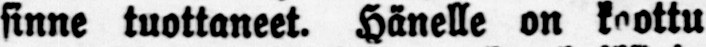sinne tuottaneet. Hänelle on koottu
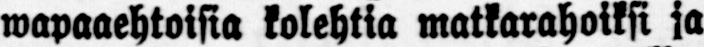wapaaehtoisia kolehtia matkarahoiksi ja
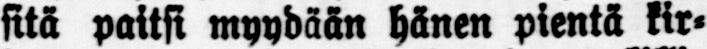sitä paitsi myydään hänen pientä kir-
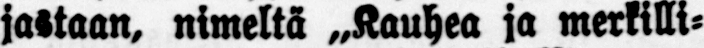jastaan, nimeltä »Kauhea ja merkilli-
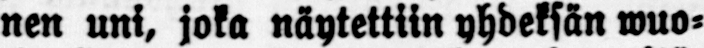nen uni, joka näytettiin yhdeksän wuo-
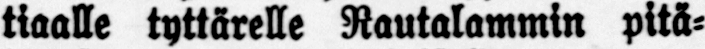tiaalle tyttärelle Rautalammin pitä-
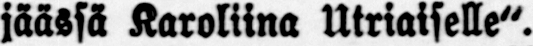jäässä Karoliina Utriaiselle".
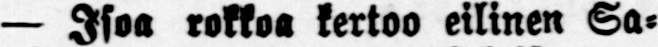— Isoa rokkoa kertoo eilinen Sa-
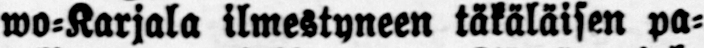wo-Karjala ilmestyneen täkäläisen pa-
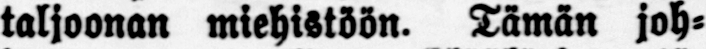taljoonan miehistöön. Tämän joh-
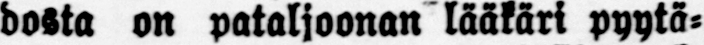dosta on pataljoonan lääkäri pyytä-
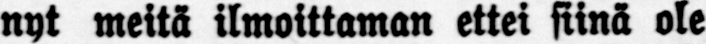nyt meitä ilmoittaman ettei siinä ole
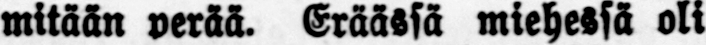mitään perää. Eräässä miehessä oli
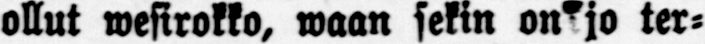ollut wesirokko, vaan sekin on jo ter-
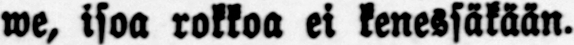we, isoa rokkoa ei kenessäkään.
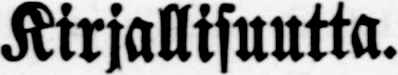Kirjallisuutta.
